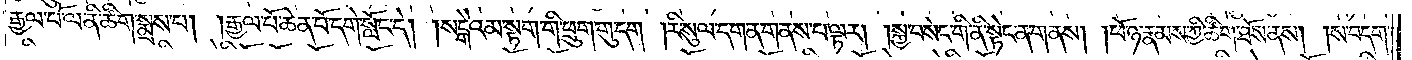རྒྱལ་པོ་ལ་ནི་ཚིག་སྨྲས་པ། །རྒྱལ་པོ་ཆེན་པོ་དགེ་སློང་དེ། །སེངྒེའམ་སྟག་གི་ཕྲུག་གུ་དག །རི་སུལ་དག་ན་གནས་པ་ལྟར། །སྐྱ་བསེང་གི་ནི་སྟེང་ན་གནས། །ཕོ་ཉ་རྣམས་ཀྱི་ཚིག་ཐོས་ནས། །ས་བདག་
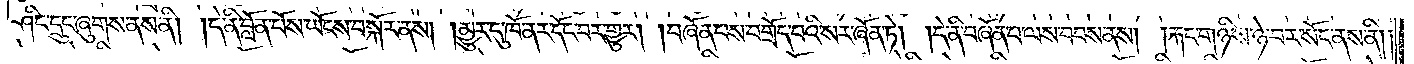ཤིང་དྲུང་ཞུགས་ནས་ནི། །དེ་ནི་བློན་པོས་ཡོངས་བསྐོར་ནས། །མྱུར་དུ་ཁོ་ནར་དོང་བར་གྱུར། །བཞོན་པས་བགྲོད་པའི་སར་ཞོན་ཏེ། །དེ་ནི་བཞོན་པ་ལས་བབས་ནས། །རྐང་གཉིས་ཉེ་བར་སོང་ནས་ནི༎
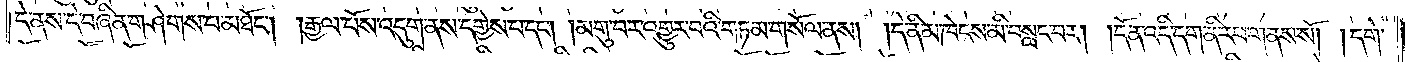དེ་ནས་དེ་བཞིན་གཤེགས་པ་མཐོང༌། །རྒྱལ་པོས་འདུག་ནས་དགྱེས་པ་དང༌། །མགུ་བར་འགྱུར་པའི་གཏམ་གསོལ་ནས། །དེ་ནི་མ་ཁེངས་མི་བསླང་བར། །དོན་འདི་དག་ནི་རབ་གནས་སོ། །དགེ་
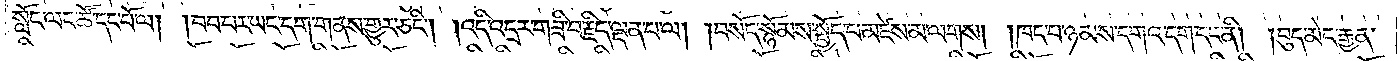སློང་ལང་ཚོ་དང་པོ་ལ། །བབ་པར་ཡང་དག་གནས་གྱུར་ཅིང༌། །འདི་འདྲར་གཟི་བརྗིད་ལྡན་པ་ལ། །བསོད་སྙོམས་སྤྱོད་པ་མཛེས་མ་ལགས། །ཁང་པ་ཉམས་དགའ་དག་དང་ནི། །བུད་མེད་རྒྱན་
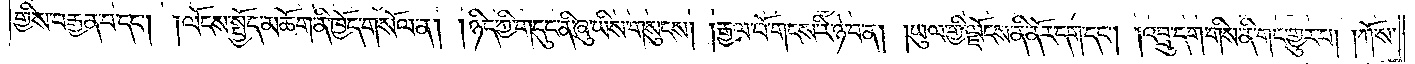གྱིས་བརྒྱན་པ་དང༌། །ལོངས་སྤྱོད་མཆོག་ནི་ཁྱོད་གསོལ་ན། །ཉིད་ཀྱི་གདུང་ནི་ཞུ་ཡིས་གསུངས། །རྒྱལ་པོ་གངས་རི་ཉེ་བ་ན། །ཡུལ་གྱི་ལྗོངས་ནི་ནོར་དག་དང༌། །འབྲུ་དག་གིས་ནི་གང་གྱུར་པ། །ཀོ་ས་
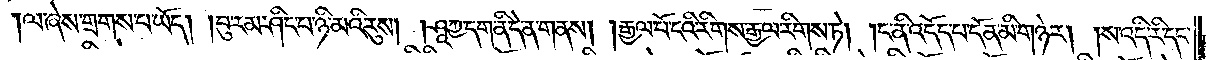ལ་ཞེས་གྲགས་པ་ཡོད། །བུ་རམ་ཤིང་པ་ཉི་མའི་རུས། །ཤཱཀྱ་དག་ནི་དེ་ན་གནས། །རྒྱལ་པོ་ངའི་རིགས་རྒྱལ་རིགས་ཏེ། །ང་ནི་འདོད་པ་དོན་མི་གཉེར། །ས་འདི་རི་དང་
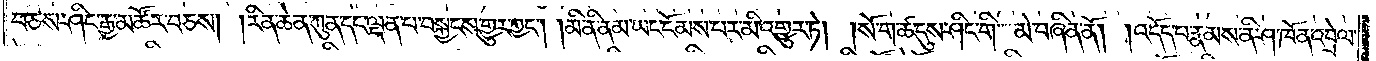བཅས་ཤིང་རྒྱ་མཚོར་བཅས། །རིན་ཆེན་ཀུན་དང་ལྡན་པ་བསྐྱངས་གྱུར་ཀྱང༌། །མི་ནི་ནམ་ཡང་ངོམས་པར་མི་འགྱུར་ཏེ། །སོ་ག་ཚ་དུས་ཤིང་གི་མེ་བཞིན་ནོ། །འདོད་པ་རྣམས་ནི་ཤ་ཁོ་ན་འབྲེལ་
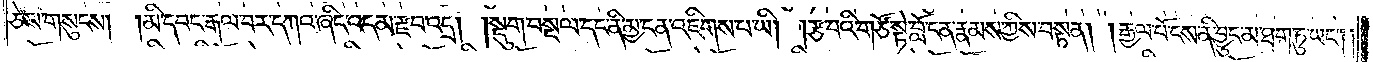ཅེས་གསུངས། །མི་དབང་རྒལ་བར་དཀའ་ཞིང་འདམ་རྫབ་འདྲ། །སྡུག་བསྔལ་དང་ནི་མྱ་ངན་འཇིགས་པ་ཡི། །རྩ་བའི་གཙོ་སྟེ་བློ་ངན་རྣམས་ཀྱིས་བསྟན། །རྒྱལ་པོ་ངས་ནི་བྱུང་མ་ཐག་ཏུ་ཡང༌། །
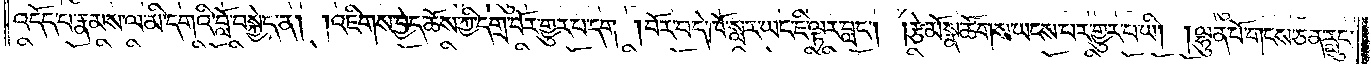འདོད་པ་རྣམས་ལ་མི་དགའི་བློ་བསྐྱེད་ན། །འཇིགས་བྱེད་ཆོས་ཀྱི་དགྲ་བོར་གྱུར་པ་དག །བོར་བ་དེ་ཁོ་སླར་ཡང་ཇི་ལྟར་བླང༌། །རྩེ་མོ་སྣ་ཚོགས་ཡངས་པར་གྱུར་པ་ཡི། །ལྷུན་པོ་གངས་ཅན་རླུང་
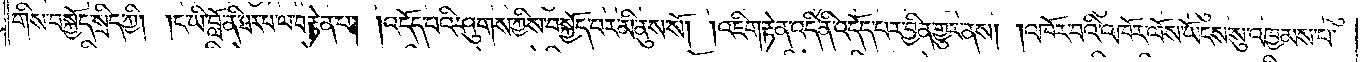གིས་བསྐྱོད་སྲིད་ཀྱི། །ང་ཡི་བློ་ནི་ཐར་པ་ལ་བརྟེན་པ། །འདོད་པའི་ཤུགས་ཀྱིས་བསྐྱོད་པར་མི་ནུས་སོ། །འཇིག་རྟེན་འདི་ནི་འདོད་པར་བྱིང་གྱུར་ནས། །འཁོར་བའི་འཁོར་ལོས་ཡོངས་སུ་འཁྱམས་པ་
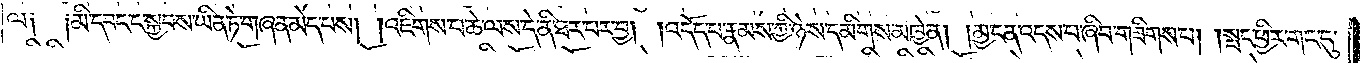ལ༑   ༑མི་དབང་ང་སྐྱབས་ཡིན་ཏེ་གཞན་མེད་པས། །འཇིགས་པ་ཆེ་ལས་དེ་ནི་ཐར་པར་བྱ། །འདོད་པ་རྣམས་ཀྱི་ཉེས་དམིགས་མཁྱེན། །མྱ་ངན་འདས་པ་ཞིབ་གཟིགས་པ། །སྤང་ཕྱིར་གང་དུ་
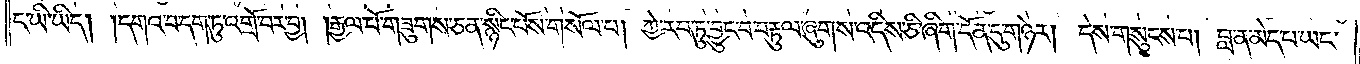ང་ཡི་ཡིད། །དགའ་བ་དག་ཏུ་འགྲོ་བར་བྱ། །རྒྱལ་པོ་གཟུགས་ཅན་སྙིང་པོས་གསོལ་པ། ཀྱེ་རབ་ཏུ་བྱུང་བ་བརྟུལ་ཞུགས་འདིས་ཅི་ཞིག་དོན་དུ་གཉེར། དེས་གསུངས་པ། བླ་ན་མེད་པ་ཡང་
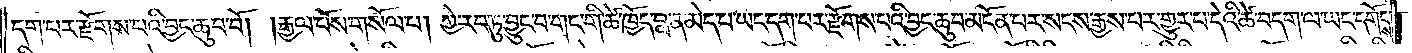དག་པར་རྫོགས་པའི་བྱང་ཆུབ་བོ། །རྒྱལ་པོས་གསོལ་པ། ཀྱེ་རབ་ཏུ་བྱུང་བ་གང་གི་ཚེ་ཁྱོད་བླ་ན་མེད་པ་ཡང་དག་པར་རྫོགས་པའི་བྱང་ཆུབ་མངོན་པར་སངས་རྒྱས་པར་གྱུར་པ་དེའི་ཚེ་བདག་ལ་ཡང་དགོངས་
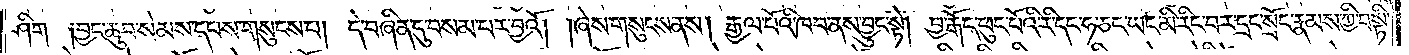ཤིག་༑བྱང་ཆུབ་སེམས་དཔས་གསུངས་པ། དེ་བཞིན་དུ་བསམ་པར་བྱའོ། །ཞེས་གསུངས་ནས། རྒྱལ་པོའི་ཁབ་ནས་བྱུང་སྟེ། བྱ་རྒོད་ཕུང་པོའི་རི་དང་ཧ་ཅང་ཡང་མི་རིང་བར་དྲང་སྲོང་རྣམས་ཀྱི་བསྟི་
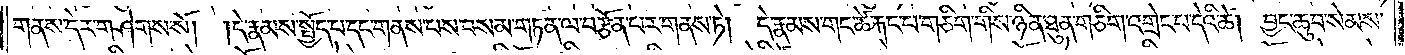གནས་དེར་གཤེགས་སོ། །དེ་རྣམས་སྤྱོད་པ་དང་གནས་པས་བསམ་གཏན་ལ་བརྩོན་པར་གནས་ཏེ། དེ་རྣམས་གང་ཚེ་རྐང་པ་གཅིག་གིས་ཉིན་ཐུན་གཅིག་འགྲེང་པ་དེའི་ཚེ། བྱང་ཆུབ་སེམས་
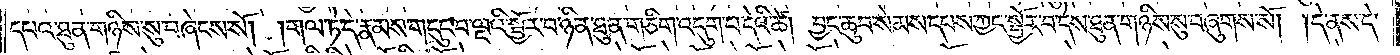དཔའ་ཐུན་གཉིས་སུ་བཞེངས་སོ། །གལ་ཏེ་དེ་རྣམས་གདུང་བ་ལྔའི་སྦྱོར་བ་ཉིན་ཐུན་གཅིག་འདུག་པ་དེའི་ཚེ། བྱང་ཆུབ་སེམས་དཔས་ཀྱང་སྦྱོར་བ་དེས་ཐུན་གཉིས་སུ་བཞུགས་སོ། །དེ་ནས་དེ་
